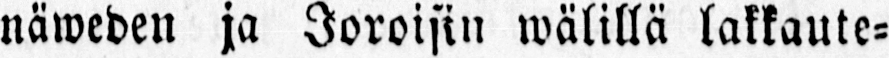näweden ja Joroisin wälillä lakkaute-
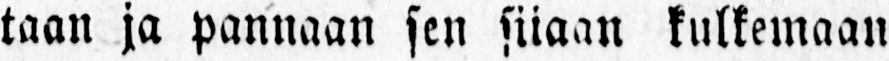taan ja pannaan sen siiaan kulkemaan
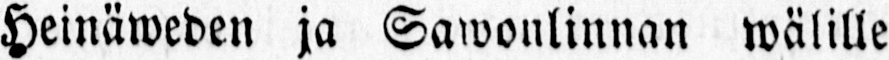Heinäweden ja Sawonlinnan wälille
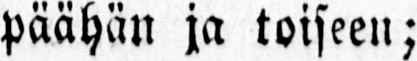päähän ja toiseen;
